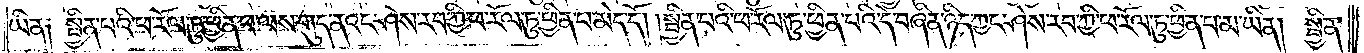ཡིན། སྦྱིན་པའི་ཕ་རོལ་ཏུ་ཕྱིན་པ་ལས་གུད་ནའང་ཤེས་རབ་ཀྱི་ཕ་རོལ་ཏུ་ཕྱིན་པ་མེད་དོ། །སྦྱིན་པའི་ཕ་རོལ་ཏུ་ཕྱིན་པའི་དེ་བཞིན་ཉིད་ཀྱང་ཤེས་རབ་ཀྱི་ཕ་རོལ་ཏུ་ཕྱིན་པ་མ་ཡིན། སྦྱིན་
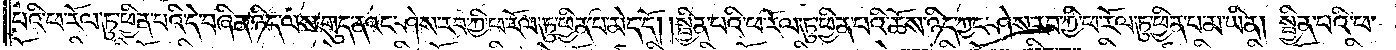པའི་ཕ་རོལ་ཏུ་ཕྱིན་པའི་དེ་བཞིན་ཉིད་ལས་གུད་ནའང་ཤེས་རབ་ཀྱི་ཕ་རོལ་ཏུ་ཕྱིན་པ་མེད་དོ། །སྦྱིན་པའི་ཕ་རོལ་ཏུ་ཕྱིན་པའི་ཆོས་ཉིད་ཀྱང་ཤེས་རབ་ཀྱི་ཕ་རོལ་ཏུ་ཕྱིན་པ་མ་ཡིན། སྦྱིན་པའི་ཕ་
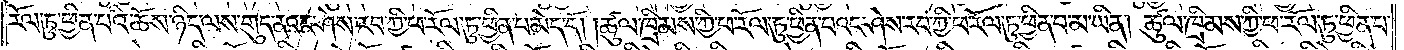རོལ་ཏུ་ཕྱིན་པའི་ཆོས་ཉིད་ལས་གུད་ནའང་ཤེས་རབ་ཀྱི་ཕ་རོལ་ཏུ་ཕྱིན་པ་མེད་དོ། །ཚུལ་ཁྲིམས་ཀྱི་ཕ་རོལ་ཏུ་ཕྱིན་པའང་ཤེས་རབ་ཀྱི་ཕ་རོལ་ཏུ་ཕྱིན་པ་མ་ཡིན། །ཚུལ་ཁྲིམས་ཀྱི་ཕ་རོལ་ཏུ་ཕྱིན་པ་
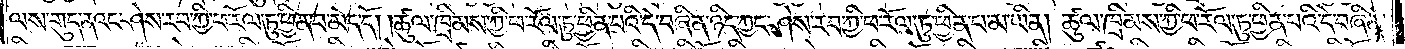ལས་གུད་ནའང་ཤེས་རབ་ཀྱི་ཕ་རོལ་ཏུ་ཕྱིན་པ་མེད་དོ། །ཚུལ་ཁྲིམས་ཀྱི་ཕ་རོལ་ཏུ་ཕྱིན་པའི་དེ་བཞིན་ཉིད་ཀྱང་ཤེས་རབ་ཀྱི་ཕ་རོལ་ཏུ་ཕྱིན་པ་མ་ཡིན། ཚུལ་ཁྲིམས་ཀྱི་ཕ་རོལ་ཏུ་ཕྱིན་པའི་དེ་བཞིན་
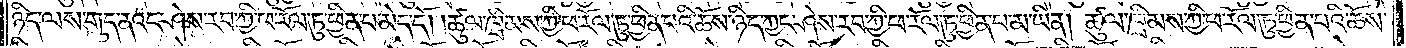ཉིད་ལས་གུད་ནའང་ཤེས་རབ་ཀྱི་ཕ་རོལ་ཏུ་ཕྱིན་པ་མེད་དོ། །ཚུལ་ཁྲིམས་ཀྱི་ཕ་རོལ་ཏུ་ཕྱིན་པའི་ཆོས་ཉིད་ཀྱང་ཤེས་རབ་ཀྱི་ཕ་རོལ་ཏུ་ཕྱིན་པ་མ་ཡིན། ཚུལ་ཁྲིམས་ཀྱི་ཕ་རོལ་ཏུ་ཕྱིན་པའི་ཆོས་
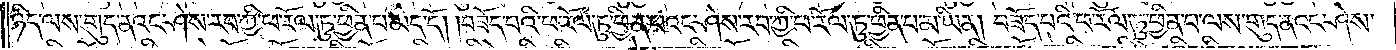ཉིད་ལས་གུད་ནའང་ཤེས་རབ་ཀྱི་ཕ་རོལ་ཏུ་ཕྱིན་པ་མེད་དོ། །བཟོད་པའི་ཕ་རོལ་ཏུ་ཕྱིན་པའང་ཤེས་རབ་ཀྱི་ཕ་རོལ་ཏུ་ཕྱིན་པ་མ་ཡིན། བཟོད་པའི་ཕ་རོལ་ཏུ་ཕྱིན་པ་ལས་གུད་ནའང་ཤེས་
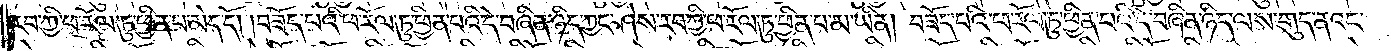རབ་ཀྱི་ཕ་རོལ་ཏུ་ཕྱིན་པ་མེད་དོ། །བཟོད་པའི་ཕ་རོལ་ཏུ་ཕྱིན་པའི་དེ་བཞིན་ཉིད་ཀྱང་ཤེས་རབ་ཀྱི་ཕ་རོལ་ཏུ་ཕྱིན་པ་མ་ཡིན། བཟོད་པའི་ཕ་རོལ་ཏུ་ཕྱིན་པའི་དེ་བཞིན་ཉིད་ལས་གུད་ནའང་
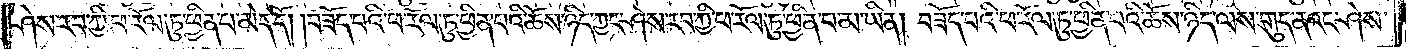ཤེས་རབ་ཀྱི་ཕ་རོལ་ཏུ་ཕྱིན་པ་མེད་དོ། །བཟོད་པའི་ཕ་རོལ་ཏུ་ཕྱིན་པའི་ཆོས་ཉིད་ཀྱང་ཤེས་རབ་ཀྱི་ཕ་རོལ་ཏུ་ཕྱིན་པ་མ་ཡིན། བཟོད་པའི་ཕ་རོལ་ཏུ་ཕྱིན་པའི་ཆོས་ཉིད་ལས་གུད་ནའང་ཤེས་
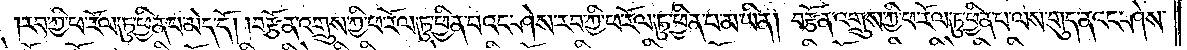རབ་ཀྱི་ཕ་རོལ་ཏུ་ཕྱིན་པ་མེད་དོ། །བརྩོན་འགྲུས་ཀྱི་ཕ་རོལ་ཏུ་ཕྱིན་པའང་ཤེས་རབ་ཀྱི་ཕ་རོལ་ཏུ་ཕྱིན་པ་མ་ཡིན། བརྩོན་འགྲུས་ཀྱི་ཕ་རོལ་ཏུ་ཕྱིན་པ་ལས་གུད་ནའང་ཤེས་
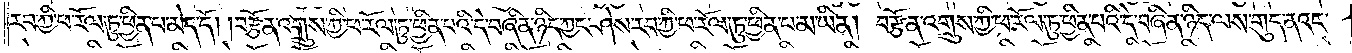རབ་ཀྱི་ཕ་རོལ་ཏུ་ཕྱིན་པ་མེད་དོ། །བརྩོན་འགྲུས་ཀྱི་ཕ་རོལ་ཏུ་ཕྱིན་པའི་དེ་བཞིན་ཉིད་ཀྱང་ཤེས་རབ་ཀྱི་ཕ་རོལ་ཏུ་ཕྱིན་པ་མ་ཡིན། བརྩོན་འགྲུས་ཀྱི་ཕ་རོལ་ཏུ་ཕྱིན་པའི་དེ་བཞིན་ཉིད་ལས་གུད་ནའང་
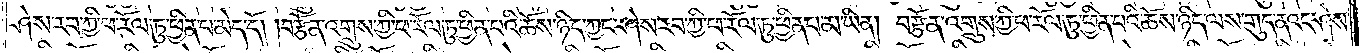ཤེས་རབ་ཀྱི་ཕ་རོལ་ཏུ་ཕྱིན་པ་མེད་དོ། །བརྩོན་འགྲུས་ཀྱི་ཕ་རོལ་ཏུ་ཕྱིན་བའི་ཆོས་ཉིད་ཀྱང་ཤེས་རབ་ཀྱི་ཕ་རོལ་ཏུ་ཕྱིན་པ་མ་ཡིན། བརྩོན་འགྲུས་ཀྱི་ཕ་རོལ་ཏུ་ཕྱིན་པའི་ཆོས་ཉིད་ལས་གུད་ནའང་ཤེས་
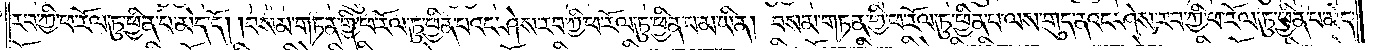རབ་ཀྱི་ཕ་རོལ་ཏུ་ཕྱིན་པ་མེད་དོ། །བསམ་གཏན་གྱི་ཕ་རོལ་ཏུ་ཕྱིན་པའང་ཤེས་རབ་ཀྱི་ཕ་རོལ་ཏུ་ཕྱིན་པ་མ་ཡིན། བསམ་གཏན་གྱི་ཕ་རོལ་ཏུ་ཕྱིན་པ་ལས་གུད་ནའང་ཤེས་རབ་ཀྱི་ཕ་རོལ་ཏུ་ཕྱིན་པ་མེད་
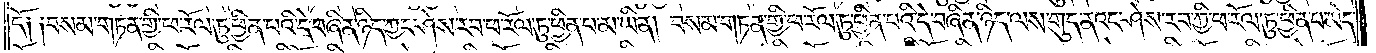དོ། །བསམ་གཏན་གྱི་ཕ་རོལ་ཏུ་ཕྱིན་པའི་དེ་བཞིན་ཉིད་ཀྱང་ཤེས་རབ་ཀྱི་ཕ་རོལ་ཏུ་ཕྱིན་པ་མ་ཡིན། བསམ་གཏན་གྱི་ཕ་རོལ་ཏུ་ཕྱིན་པའི་དེ་བཞིན་ཉིད་ལས་གུད་ནའང་ཤེས་རབ་ཀྱི་ཕ་རོལ་ཏུ་ཕྱིན་པ་མེད་
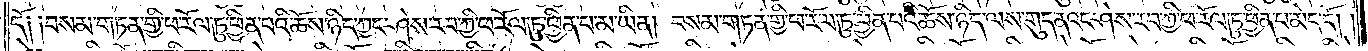དོ། །བསམ་གཏན་གྱི་ཕ་རོལ་ཏུ་ཕྱིན་པའི་ཆོས་ཉིད་ཀྱང་ཤེས་རབ་ཀྱི་ཕ་རོལ་ཏུ་ཕྱིན་པ་མ་ཡིན། བསམ་གཏན་གྱི་ཕ་རོལ་ཏུ་ཕྱིན་པའི་ཆོས་ཉིད་ལས་གུད་ནའང་ཤེས་རབ་ཀྱི་ཕ་རོལ་ཏུ་ཕྱིན་པ་མེད་དོ། །
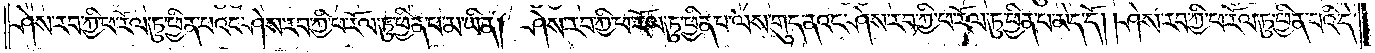ཤེས་རབ་ཀྱི་ཕ་རོལ་ཏུ་ཕྱིན་པའང་ཤེས་རབ་ཀྱི་ཕ་རོལ་ཏུ་ཕྱིན་པ་མ་ཡིན། ཤེས་རབ་ཀྱི་ཕ་རོལ་ཏུ་ཕྱིན་པ་ལས་གུད་ནའང་ཤེས་རབ་ཀྱི་ཕ་རོལ་ཏུ་ཕྱིན་པ་མེད་དོ། ཤེས་རབ་ཀྱི་ཕ་རོལ་ཏུ་ཕྱིན་པའི་དེ་
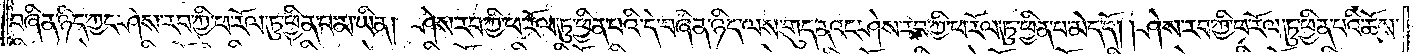བཞིན་ཉིད་ཀྱང་ཤེས་རབ་ཀྱི་ཕ་རོལ་ཏུ་ཕྱིན་པ་མ་ཡིན། ཤེས་རབ་ཀྱི་ཕ་རོལ་ཏུ་ཕྱིན་པའི་དེ་བཞིན་ཉིད་ལས་གུད་ནའང་ཤེས་རབ་ཀྱི་ཕ་རོལ་ཏུ་ཕྱིན་པ་མེད་དོ། །ཤེས་རབ་ཀྱི་ཕ་རོལ་ཏུ་ཕྱིན་པའི་ཆོས་
